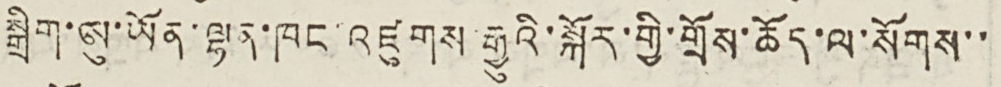སྒྲིག་ཨུ་ཡོན་ལྷན་ཁང་འཛུགས་རྒྱུའི་སྐོར་གྱི་གྲོས་ཆོད་ལ་སོགས་་
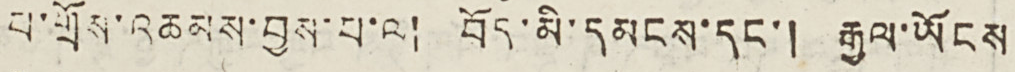པ་གྲོས་འཆམས་བྱས་པ་ལ། བོད་མི་དམངས་དང་། རྒྱལ་ཡོངས
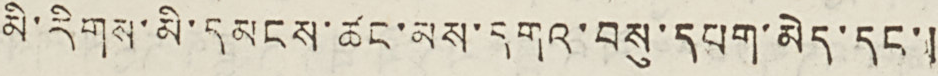མི་རིགས་མི་དམངས་ཚང་མས་དགའ་བསུ་དཔག་མེད་དང་།
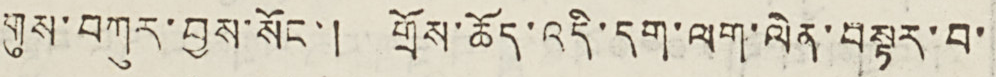གུས་བཀུར་བྱས་སོང་། གྲོས་ཆོད་འདི་དག་ལག་ལེན་བསྟར་བ་
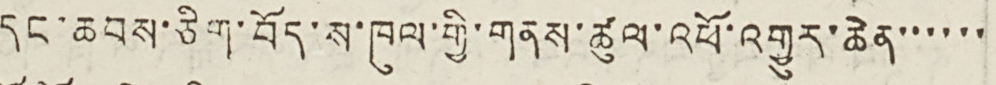དང་ཆབས་ཅིག་བོད་ས་ཁུལ་གྱི་གནས་ཚུལ་འཕོ་འགྱུར་ཆེན་་་་་་
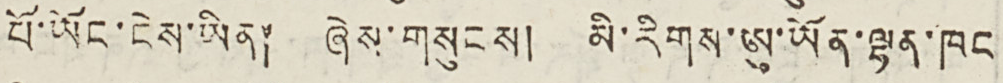པོ་ཡོང་ངེས་ཡིན། ཞེས་གསུངས། མི་རིགས་ཨུ་ཡོན་ལྷན་ཁང
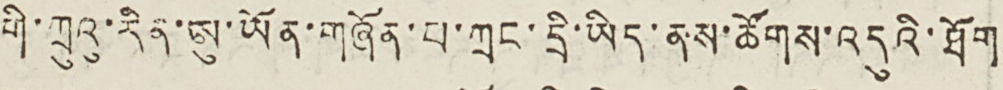གི་ཀྲུའུ་རིན་ཨུ་ཡོན་གཞོན་པ་ཀྲང་དྲི་ཡིད་ནས་ཚོགས་འདུའི་ཐོག
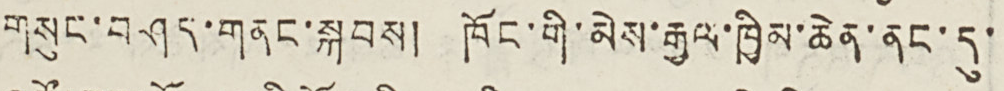གསུང་བཤད་གནང་སྐབས། ཁོང་གི་མེས་རྒྱལ་ཁྱིམ་ཆེན་ནང་དུ་
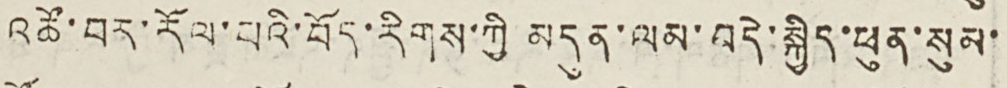འཚོ་བར་རོལ་པའི་བོད་རིགས་ཀྱི མདུན་ལམ་བདེ་སྐྱིད་ཕུན་སུམ་
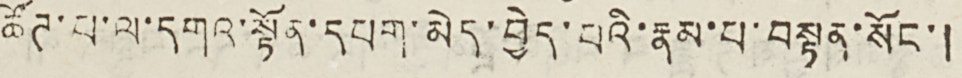ཚོཊ་པ་ལ་དགའ་སྟོན་དཔག་མེད་བྱེད་པའི་རྣམ་པ་བསྟན་སོང་།
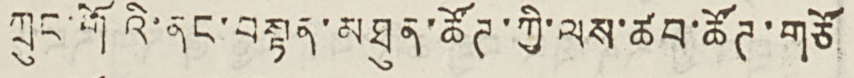ཀྲུང་གོའི་ནང་བསྟན་མཐུན་ཚོཊ་ཀྱི་ལས་ཚབ་ཚོཊ་གཙོ
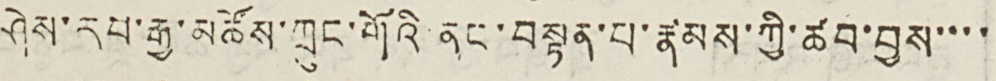ཤེས་རབ་རྒྱ་མཚོས་ཀྲུང་གོའི་ནང་བསྟན་པ་རྣམས་ཀྱི་ཚབ་བྱས་་་་
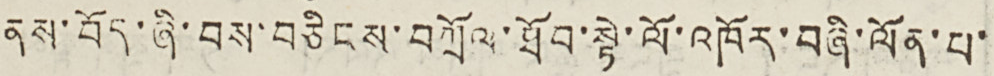ནས་བོད་ཞི་བས་བཅིངས་བཀྲོལ་ཐོབ་སྟེ་ལོ་འཁོར་བཞི་ལོན་པ་
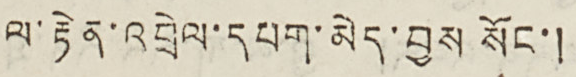ལ་རྟེན་འབྲེལ་དཔག་མེད་བྱས སོང་།
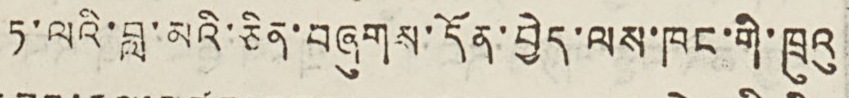ཏ་ལའི་བླ་མའི་ཅིན་བཞུགས་དོན་བྱེད་ལས་ཁང་གི་ཁྲུའུ
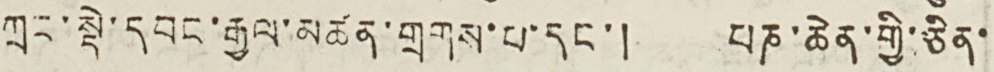ཀྲང་སྟེ་དབང་རྒྱལ་མཚན་གྲགས་པ་དང་། པཎ་ཆེན་གྱི་ཅིན་
